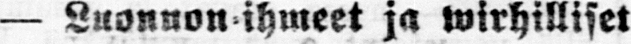— Luonnon-ihmeet ja wirhilliset
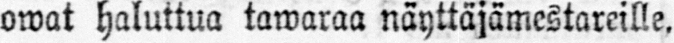owat haluttua tawaraa näyttäjämestareille,
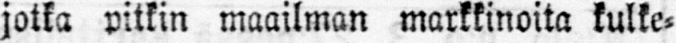jotka pitkin maailman markkinoita kulke-
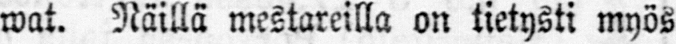wat. Näillä mestareilla on tietysti myös
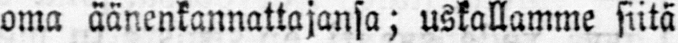oma äänenkannattajansa; uskallamme siitä
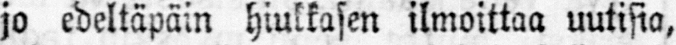jo edeltäpäin hiukkasen ilmoittaa uutisia,
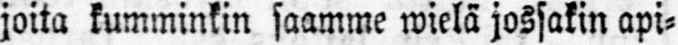joita kumminkin saamme wielä jossakin api-
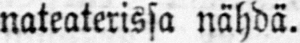nateaterissa nähdä.
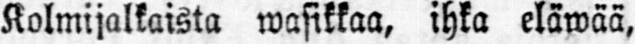Kolmijalkaista wasikkaa, ihka eläwää,
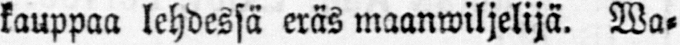kauppaa lehdessä eräs maanwiljelijä. Wa-
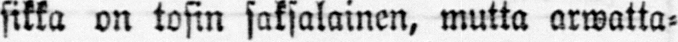sikka on tosin saksalainen, mutta arwatta-
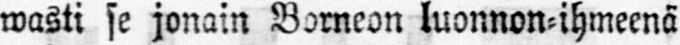wasti se jonain Borneon luonnon-ihmeenä
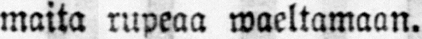maita rupeaa waeltamaan.
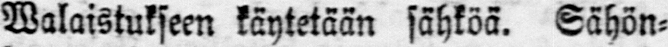Walaistukseen käytetään sähköä. Sähön-
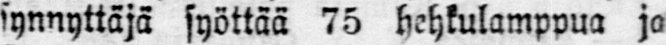synnyttäjä syöttää 75 hehkulampua ja
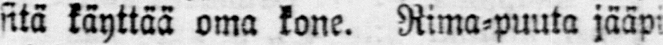sitä käyttää oma kone. Rima-puuta jääpi
